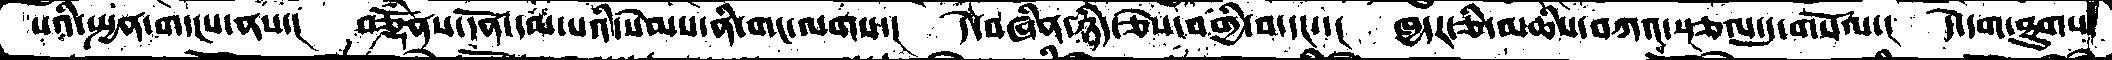པའི་སྤྱན་གདངས་ནས་།   བཅྡོྃནས་དོན་དམ་པའི་སེམས་ནི་གང་ལགས་།   དེ་བཞིན་ཉིད་ཅེས་བགྱི་བ་དང་་།   ཁྱདར་ཅི་མཆིས་བཀའ་སྩལ་དུ་གསོལ་།   དེ་དག་ཐུགས་
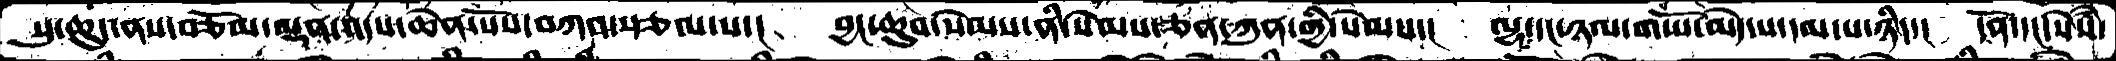སུ་ཆུད་ནས་བཅོམ་ལྡན་འདས་ཆེན་པོས་བཀའ་སྩལ་པ་།   བྱང་ཆུབ་སེམས་ནི་སེམས་ཅན་ཀུན་གྱི་སེམས་།    ལྷ་དང་ཉལ་གཡོ་མེད་པ་དམ་པ་ཉིད་།   དོན་དང་སེསཾ་
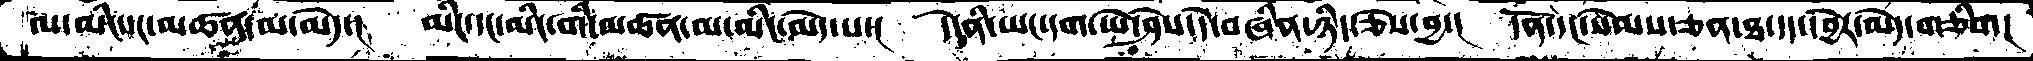ལ་མིང་དང་མཚན་མ་མེད་།   མིང་དང་མིང་གི་མཚན་མ་མིང་མེད་པ་།    དེ་ནི་ཡང་དག་ཡེ་ཤེས་དེ་བཞིན་ཉིད་ཅེས་བྱ་།   དོན་དང་སེམས་ཅན་ཐ་དད་དབྱེར་མེད་གཅིག།
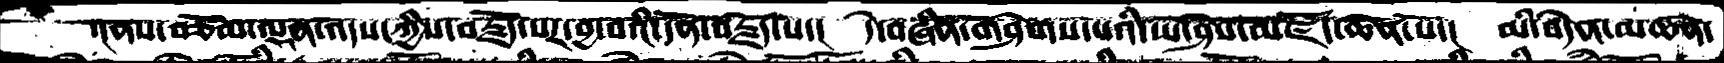་།ནས་བཅོམ་ལྡན་འདས་ཀྱིས་བརྗོད་པར་བྱ་བའི་དོན་བརྗོད་པ་།  དེ་བཞིན་གཤེགས་པའི་ཡེ་ཤེས་མཛོད་ཆེན་པོ་།  མི་བདེན་མཚན་
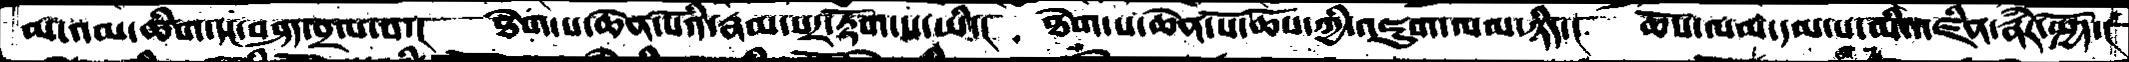མ་དམ་ཚིག་དང་བཤད་བྲལ་བ་།  ཐེག་པ་ཆེན་པོའི་རྣམ་པར་རྟོག་པ་ཡི་།  ཐེག་པ་ཆེན་པོ་ཆོས་ཀྱི་འཇུག་ལམ་ཉིད་།  ཆོས་ལམ་དམ་པ་མི་འཛིན་རྣཾར་སྤྱོད་།
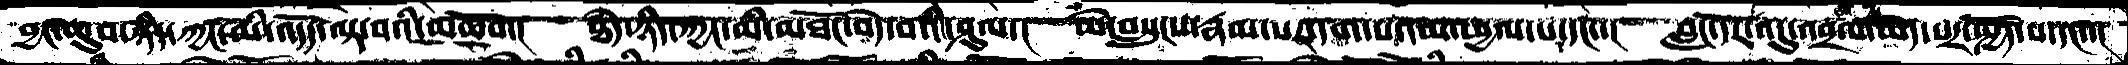བྱང་ཆུབ་ཉིད་ཀྱང་མི་འདོད་ལྟ་བའི་མཆོག་།    ཐཾད་ཉིད་ཀྱང་མི་མཐོང་བདེ་བའི་ཤུལ་།   ཡེ་བསྲུངས་རྣམ་པར་དག་པའམ་ཕྱལ་པ་དང་་།    བླང་དོར་འདུ་འབྲལ་མེད་པར་སྤྱོད་པ་དང་་།
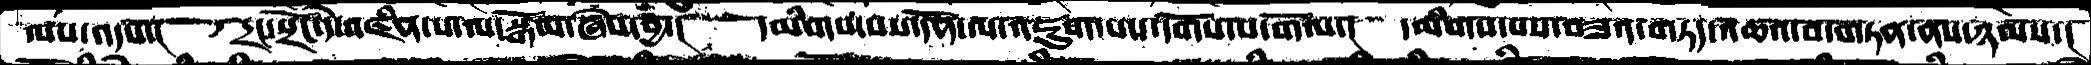ལས་འདས་།  དྲང་སྲོང་དེ་འཛིན་པ་ལ་སྒོམ་ཞེས་བྱ་།  དམིག་པས་དོན་ལ་འཇུག་པས་དགོས་པ་གོལ་།  དམིགས་པས་བཟའ་གཏད་འཆའ་བ་གཏན་ནས་ཉམས་།
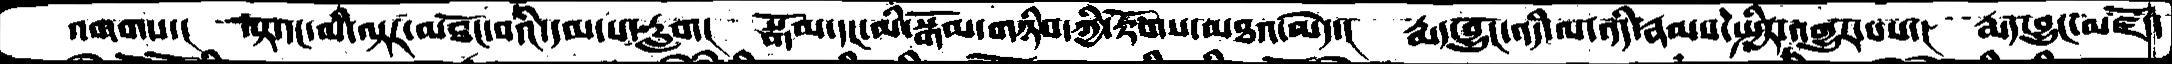འགགས་། ལྟ་དང་མི་ལྟར་མཐོང་བའི་དམ་པ་རླག།  སྒོམ་དང་མི་སྒོམ་གཉིས་ཀྱི་རྟོགས་མཐའ་མེད་།  རྨད་བྱུང་འདི་ལ་འདི་རྣམས་སྤྱིར་འགྱུར་པས་།  རྨད་བྱུང་མཛོད་
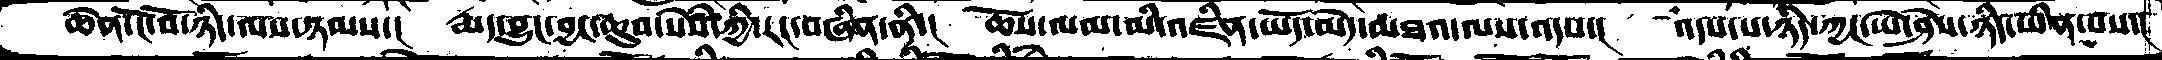ཆེན་ངོ་བོ་ཉིད་ལས་ཉམས་།  རྨད་བྱུང་བྱང་ཆུབ་སེཾས་ཀྱི་རང་བཞིན་ནི་།  ཆོས་ལམ་མི་འཛིན་ཡོད་མེད་མཐའ་ལས་འདས་།  འདས་པ་ཉིད་ཀྱང་ཡེ་ཤེས་ཉིད་ཡིན་པས་།
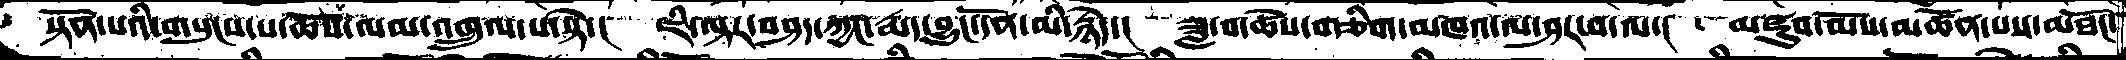སྟོན་པའི་གསུངས་པ་ཆོས་ལམ་འཁྲུལ་པ་སྟེ་།  ཇི་ལྟར་བཤད་ཀྱང་རྨད་བྱུང་དོན་མི་རྙེད་།  ཟླ་བ་ཚེས་གཅིག་མཁའ་ལ་ཤར་བ་ལ་།  མཛུབ་མོས་མཚོན་པས་མཐོང་
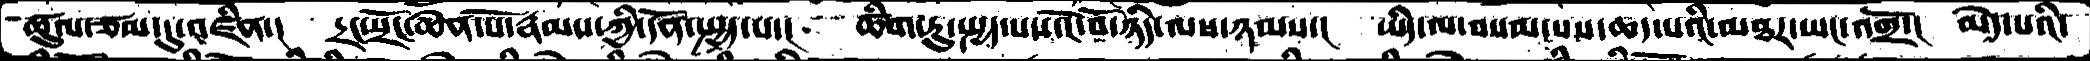ཚུལ་ཙམ་དུ་འཛིན་།  དྲང་སྲོང་ཆེན་པོ་རྣམས་ཀྱི་དོན་སྤྱད་པ་།  ཚིག་ཏུ་སྤྱད་པས་ངོ་བོ་ཉིད་ལས་ཉམས་།  ཡིད་ལ་བསམ་པས་ཆད་པའི་མཐར་ཡང་འགྲོ་།  མེད་པའི་
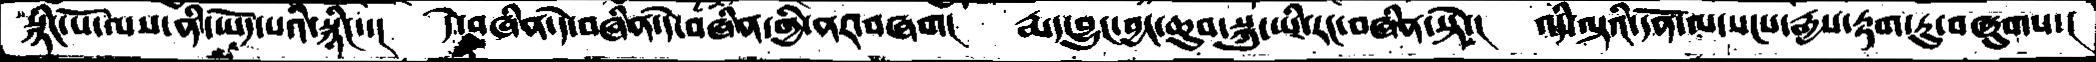སྙིང་པོ་ལས་ནི་ཡོད་པའི་སྙིང་་།   དེ་བཞིན་དེ་བཞིན་དེ་བཞིན་གྱི་ནར་བཞག།  རྨད་བྱུང་བྱང་ཆུབ་སྐུ་ཡི་རང་བཞིན་སྟེ་།  འདི་ལྟའི་དོན་ལ་སངས་རྒྱས་རྟག་ཏུ་བཞུགས་།
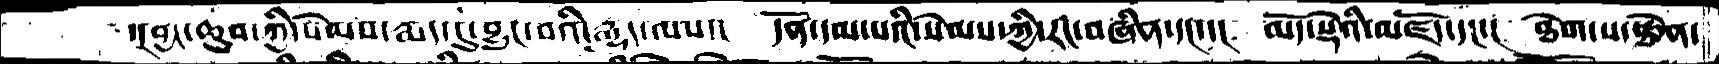་།བྱང་ཆུབ་ཀྱི་སེམས་རྨད་དུ་བྱུང་བའི་རྒྱུད་ལས་།  དོན་དམ་པའི་སེམས་ཀྱི་རང་བཞིན་དང་་།  མདོ་སྡེའི་མཛོད་དང་་།  ཐེག་པ་ཆེན་
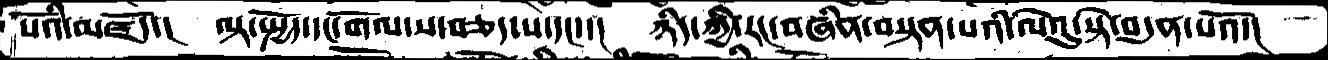པོའི་མཛོད་།  ལྟ་སྤྱོད་དང་གོལ་ས་བཅད་པ་དང་་།  ཉིད་ཀྱི་རང་བཞིན་བསྟན་པའི་ལེའུ་སྟེ་བདུན་པའོ་།
